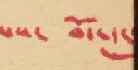པས་བོད་
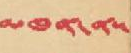མཁན་ནས
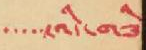་་་་་ངའི་གཟི
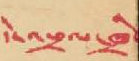དེར་ཕྲལ་ཁྲི
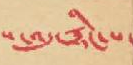པ་ཨུ་རྙིང་པ་
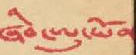ཞིབ་ཨུ་ཡོན
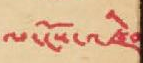ལ་ངོས་འཛིན
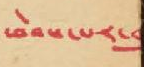ཕེབས་པར་
